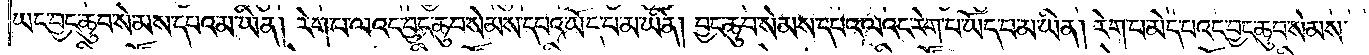ཡང་བྱང་ཆུབ་སེམས་དཔའ་མ་ཡིན། རེག་པ་ལའང་བྱང་ཆུབ་སེམས་དཔའ་ཡོད་པ་མ་ཡིན། བྱང་ཆུབ་སེམས་དཔའ་ལའང་རེག་པ་ཡོད་པ་མ་ཡིན། རེག་པ་མེད་པའང་བྱང་ཆུབ་སེམས་
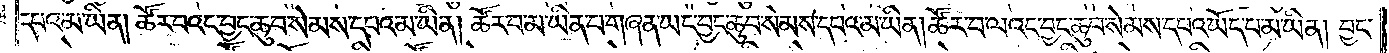དཔའ་མ་ཡིན། ཚོར་བའང་བྱང་ཆུབ་སེམས་དཔའ་མ་ཡིན། ཚོར་བ་མ་ཡིན་པ་གཞན་ཡང་བྱང་ཆུབ་སེམས་དཔའ་མ་ཡིན། ཚོར་བ་ལའང་བྱང་ཆུབ་སེམས་དཔའ་ཡོད་པ་མ་ཡིན། བྱང་
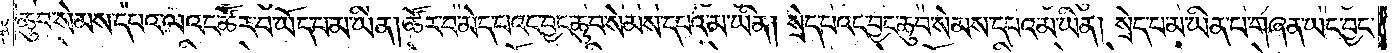ཆུབ་སེམས་དཔའ་ལའང་ཚོར་བ་ཡོད་པ་མ་ཡིན། ཚོར་བ་མེད་པའང་བྱང་ཆུབ་སེམས་དཔའ་མ་ཡིན། སྲེད་པའང་བྱང་ཆུབ་སེམས་དཔའ་མ་ཡིན། སྲེད་པ་མ་ཡིན་པ་གཞན་ཡང་བྱང་
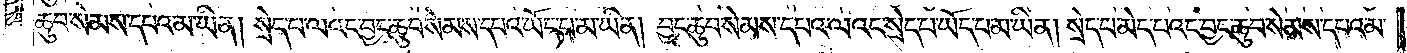ཆུབ་སེམས་དཔའ་མ་ཡིན། སྲེད་པ་ལའང་བྱང་ཆུབ་སེམས་དཔའ་ཡོད་པ་མ་ཡིན། བྱང་ཆུབ་སེམས་དཔའ་ལའང་སྲེད་པ་ཡོད་པ་མ་ཡིན། སྲེད་པ་མེད་པའང་བྱང་ཆུབ་སེམས་དཔའ་མ་
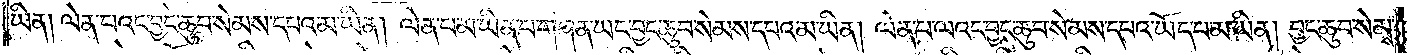ཡིན། ལེན་པའང་བྱང་ཆུབ་སེམས་དཔའ་མ་ཡིན། ལེན་པ་མ་ཡིན་པ་གཞན་ཡང་བྱང་ཆུབ་སེམས་དཔའ་མ་ཡིན། ལེན་པ་ལའང་བྱང་ཆུབ་སེམས་དཔའ་ཡོད་པ་མ་ཡིན། བྱང་ཆུབ་སེམས་
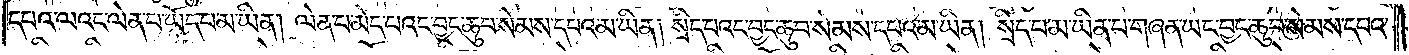དཔའ་ལའང་ལེན་པ་ཡོད་པ་མ་ཡིན། ལེན་པ་མེད་པའང་བྱང་ཆུབ་སེམས་དཔའ་མ་ཡིན། སྲིད་པའང་བྱང་ཆུབ་སེམས་དཔའ་མ་ཡིན། སྲིད་པ་མ་ཡིན་པ་གཞན་ཡང་བྱང་ཆུབ་སེམས་དཔའ་
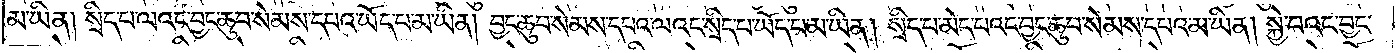མ་ཡིན། སྲིད་པ་ལའང་བྱང་ཆུབ་སེམས་དཔའ་ཡོད་པ་མ་ཡིན། བྱང་ཆུབ་སེམས་དཔའ་ལའང་སྲིད་པ་ཡོད་པ་མ་ཡིན། སྲིད་པ་མེད་པའང་བྱང་ཆུབ་སེམས་དཔའ་མ་ཡིན། སྐྱེ་བའང་བྱང་
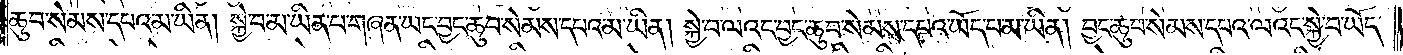ཆུབ་སེམས་དཔའ་མ་ཡིན། སྐྱེ་བ་མ་ཡིན་པ་གཞན་ཡང་བྱང་ཆུབ་སེམས་དཔའ་མ་ཡིན། སྐྱེ་བ་ལའང་བྱང་ཆུབ་སེམས་དཔའ་ཡོད་པ་མ་ཡིན། བྱང་ཆུབ་སེམས་དཔའ་ལའང་སྐྱེ་བ་ཡོད་
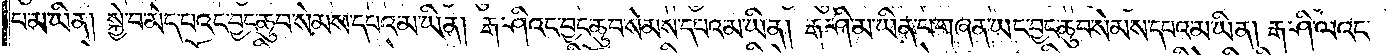པ་མ་ཡིན། སྐྱེ་བ་མེད་པའང་བྱང་ཆུབ་སེམས་དཔའ་མ་ཡིན། རྒ་ཤིའང་བྱང་ཆུབ་སེམས་དཔའ་མ་ཡིན། རྒ་ཤི་མ་ཡིན་པ་གཞན་ཡང་བྱང་ཆུབ་སེམས་དཔའ་མ་ཡིན། རྒ་ཤི་ལའང་
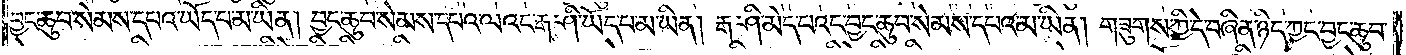བྱང་ཆུབ་སེམས་དཔའ་ཡོད་པ་མ་ཡིན། བྱང་ཆུབ་སེམས་དཔའ་ལའང་རྒ་ཤི་ཡོད་པ་མ་ཡིན། རྒ་ཤི་མེད་པའང་བྱང་ཆུབ་སེམས་དཔའ་མ་ཡིན། གཟུགས་ཀྱི་དེ་བཞིན་ཉིད་ཀྱང་བྱང་ཆུབ་
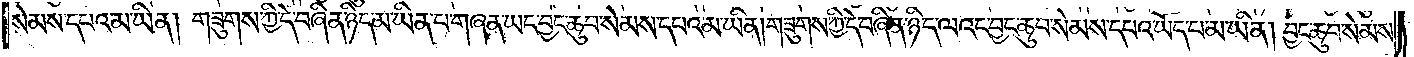སེམས་དཔའ་མ་ཡིན། གཟུགས་ཀྱི་དེ་བཞིན་ཉིད་མ་ཡིན་པ་གཞན་ཡང་བྱང་ཆུབ་སེམས་དཔའ་མ་ཡིན། གཟུགས་ཀྱི་དེ་བཞིན་ཉིད་ལའང་བྱང་ཆུབ་སེམས་དཔའ་ཡོད་པ་མ་ཡིན། བྱང་ཆུབ་སེམས་
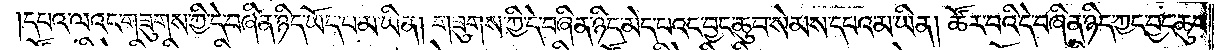དཔའ་ལའང་གཟུགས་ཀྱི་དེ་བཞིན་ཉིད་ཡོད་པ་མ་ཡིན། གཟུགས་ཀྱི་དེ་བཞིན་ཉིད་མེད་པའང་བྱང་ཆུབ་སེམས་དཔའ་མ་ཡིན། ཚོར་བའི་དེ་བཞིན་ཉིད་ཀྱང་བྱང་ཆུབ་
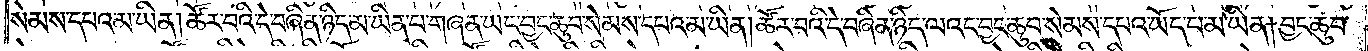སེམས་དཔའ་མ་ཡིན། ཚོར་བའི་དེ་བཞིན་ཉིད་མ་ཡིན་པ་གཞན་ཡང་བྱང་ཆུབ་སེམས་དཔའ་མ་ཡིན། ཚོར་བའི་དེ་བཞིན་ཉིད་ལའང་བྱང་ཆུབ་སེམས་དཔའ་ཡོད་པ་མ་ཡིན། བྱང་ཆུབ་
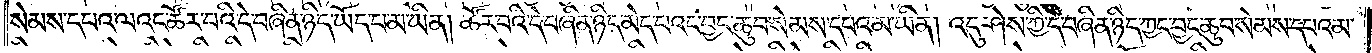སེམས་དཔའ་ལའང་ཚོར་བའི་དེ་བཞིན་ཉིད་ཡོད་པ་མ་ཡིན། ཚོར་བའི་དེ་བཞིན་ཉིད་མེད་པའང་བྱང་ཆུབ་སེམས་དཔའ་མ་ཡིན། འདུ་ཤེས་ཀྱི་དེ་བཞིན་ཉིད་ཀྱང་བྱང་ཆུབ་སེམས་དཔའ་མ་
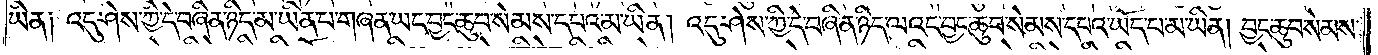ཡིན༑ འདུ་ཤེས་ཀྱི་དེ་བཞིན་ཉིད་མ་ཡིན་པ་གཞན་ཡང་བྱང་ཆུབ་སེམས་དཔའ་མ་ཡིན། འདུ་ཤེས་ཀྱི་དེ་བཞིན་ཉིད་ལའང་བྱང་ཆུབ་སེམས་དཔའ་ཡོད་པ་མ་ཡིན། བྱང་ཆུབ་སེམས་
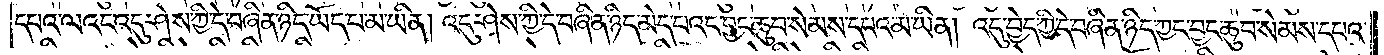དཔའ་ལའང་འདུ་ཤེས་ཀྱི་དེ་བཞིན་ཉིད་ཡོད་པ་མ་ཡིན། འདུ་ཤེས་ཀྱི་དེ་བཞིན་ཉིད་མེད་པའང་བྱང་ཆུབ་སེམས་དཔའ་མ་ཡིན། འདུ་བྱེད་ཀྱི་དེ་བཞིན་ཉིད་ཀྱང་བྱང་ཆུབ་སེམས་དཔའ་
